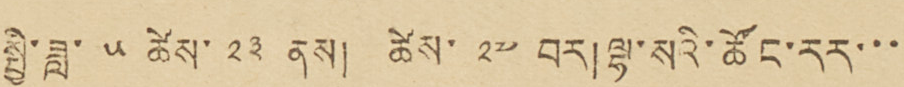སྤྱི་ཟླ་ ༥ ཚེས་ ༢༣ ནས། ཚེས་ ༢༧ བར། ལྷ་སའི་ཚོང་རར་་་་
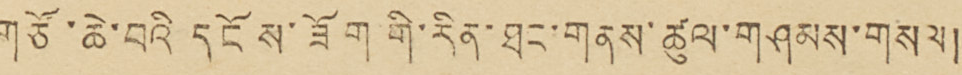གཙོ་ཆེ་བའི དངོས་ཟོག གི་རིན་ཐང་གནས་ཚུལ་གཤམས་གསལ།
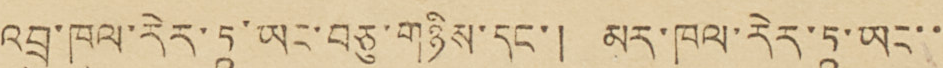འབྲུ་ཁལ་རེར་དཱ་ཡང་བཅུ་གཉིས་དང་། མར་ཁལ་རེར་ཏྰ་ཡང་་་
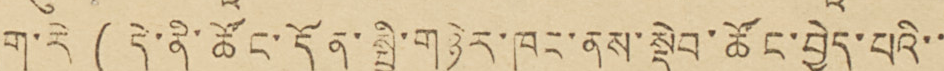དྲུག་རེ་ ( དེ་ནི་ཚོང་དོན་སྤྱི་གཉེར་ཁང་ནས་སྡེབ་ཚོང་བྱེད་པའི་་་་
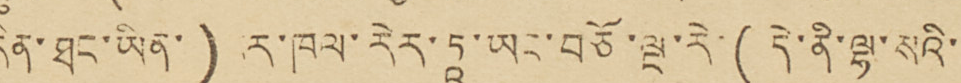རིན་ཐང་ཡིན་ ) ར་ཁལ་རེར་དཱ་ཡང་བཅོ་ལྔ་རེ་ ( དེ་ནི་ལྷ་སའི་་
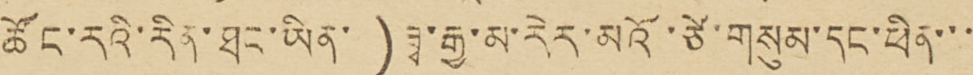ཚོང་རའི་རིན་ཐང་ཡིན་ ) ཚྭ་རྒྱ་མ་རེར་མའོ་ཙེ་གསུམ་དང་ཕིན་་་་
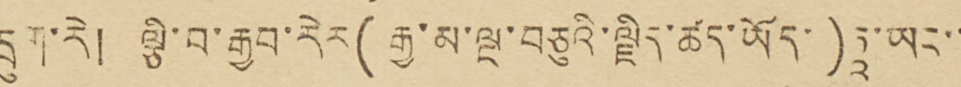དྲུག་རེ། ལྕི་བ་རྒྱབ་རེར་ ( རྒྱ་མ་ལྔ་བཅུའི་ལྗིད་ཚད་ཡོད་ ) དཱ་ཡང་་་
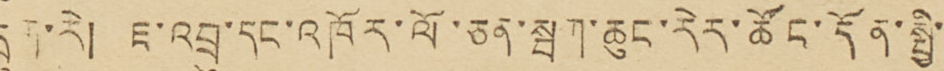དྲུག་རེ། ཇ་འབྲུ་དང་འཁོར་ལོ་ཅན་སྦག་ཆུང་རེར་ཚོང་དོན་སྤྱི་་་
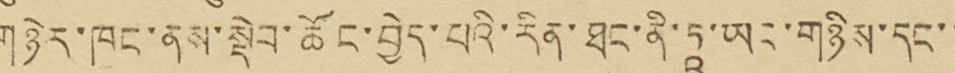གཉེར་ཁང་ནས་སྡེབ་ཚོང་བྱེད་པའི་རིན་ཐང་ནི་དཱ་ཡང་གཉིས་དང་་་
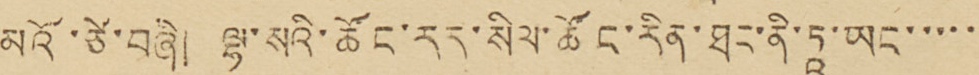མའོ་ཙེ་བཞི། ལྷ་སའི་ཚོང་རར་སིལ་ཚོང་རིན་ཐང་ནི་དཱ་ཡང་་་་་་
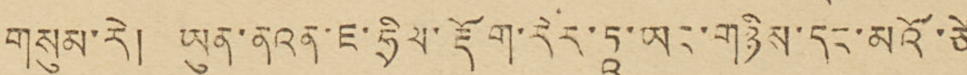གསུམ་རེ། ཡུན་ནའན་ཇ་ཧྲིལ་རྡོག་རེར་དཱ་ཡང་གཉིས་དང་མའོ་ཙེ་
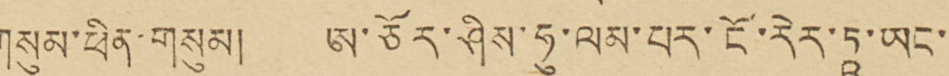གསུམ་ཕིན་གསུམ། ཨ་ཅོར་ཤིས་ཧུ་ལམ་པར་ངོ་རེར་དཱ་ཡང་་་
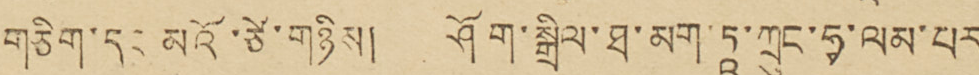གཅིག་དང་མའོ་ཙེ་གཉིས། ཤོག་སྒྲིལ་ཐ་མག་དཱ་ཀྲུང་ཧྭ་ལམ་པར་
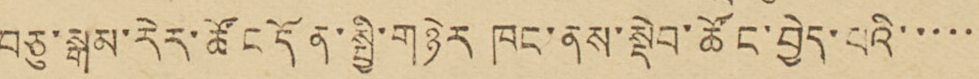བཅུ་སྒམ་རེར་ཚོང་དོན་སྤྱི་གཉེར ཁང་ནས་སྡེབ་ཚོང་བྱེད་པའི་་་་་་
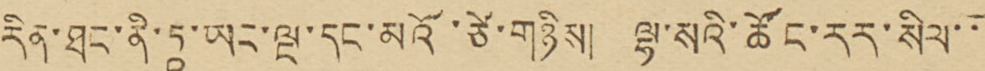རིན་ཐང་ནི་དཱ་ཡང་ལྔ་དང་མའོ་ཙེ་གཉིས། ལྷ་སའི་ཚོང་རར་སིལ་་་
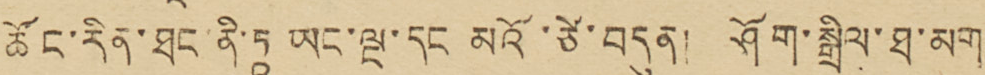ཚོང་རིན་ཐང་ནི་དཱ ཡང་ལྔ་དང མའོ་ཙེ་བདུན། ཤོག་སྒྲིལ་ཐ་མག་
